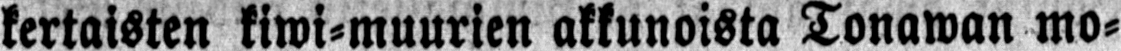kertaisten kiwi-muurien akkunoista Tonawan mo-
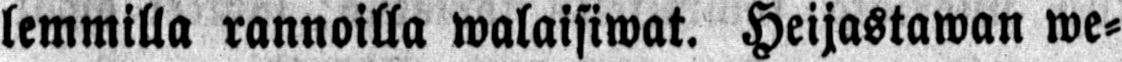lemmilla rannoilla walaisiwat. Heijastawan we-
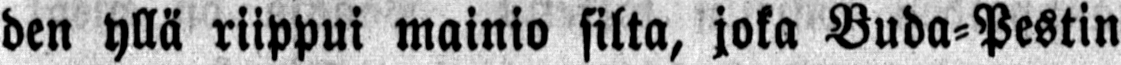den yllä riippui mainio silta, joka Buda-Pestin
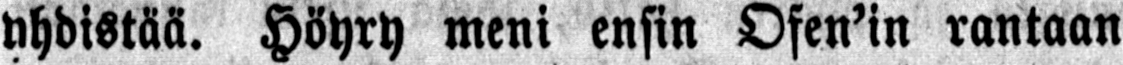yhdistää. Höyry meni ensin Ofen'in rantaan
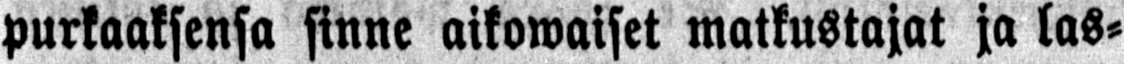purkaaksensa sinne aikowaiset matkustajat ja las-
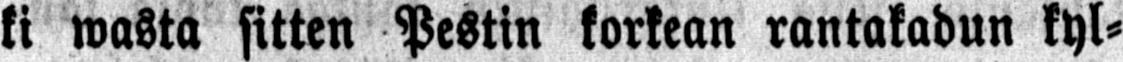ki wasta sitten Pestin korkean rantakadun kyl-
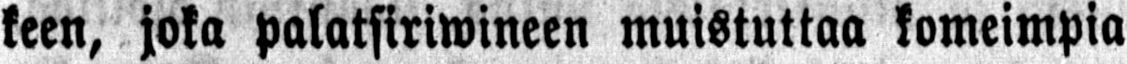keen, joka palatsiriwineen muistuttaa komeimpia
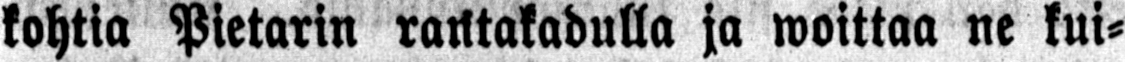kohtia Pietarin rantakadulla ja woittaa ne kui-
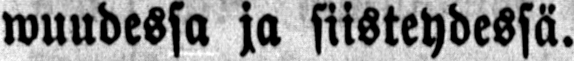wuudessa ja siisteydessä.
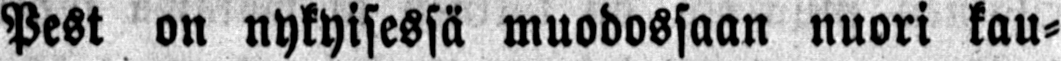Pest on nykyisessä muodossaan nuori kau-
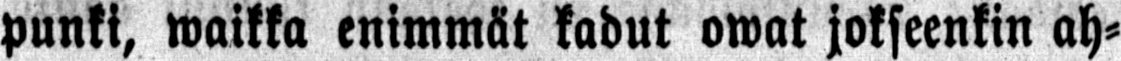punki, waikka enimmät kadut owat jokseenkin ah-
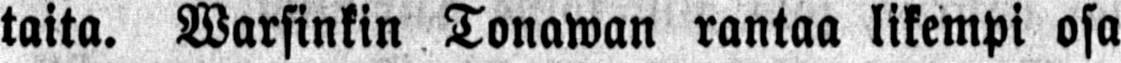taita. Warsinkin Tonawan rantaa likempi osa
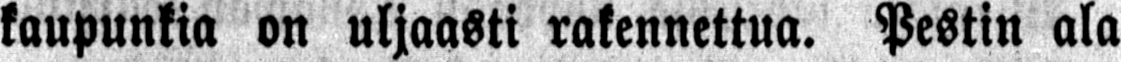kaupunkia on uljaasti rakennettua. Pestin ala
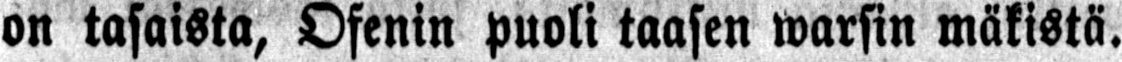on tasaista, Ofenin puoli taasen warsin mäkistä.
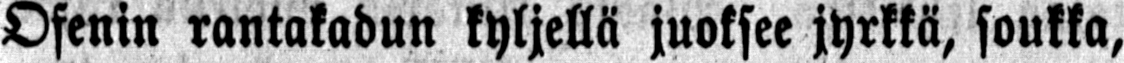Ofenin rantakadun kyljellä juoksee jyrkkä, soukka,
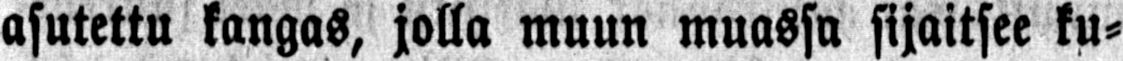asutettu kangas, jolla muun muassa sijaitsee ku-
